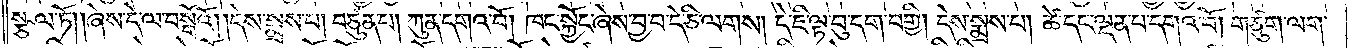སྩལ་ཏོ། །ཞེས་དེ་ལ་བསྒོའོ། །དེས་སྨྲས་པ། བཙུན་པ། ཀུན་དགའ་བོ། ཁང་སྐྱོང་ཞེས་བྱ་བ་དེ་ཅི་ལགས། དེ་ཇི་ལྟ་བུ་དག་བགྱི། དེས་སྨྲས་པ། ཚེ་དང་ལྡན་པ་དགའ་བོ། གཙུག་ལག་
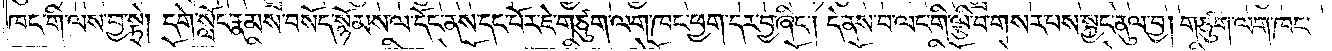ཁང་གི་ལས་བྱ་སྟེ། དགེ་སློང་རྣམས་བསོད་སྙོམས་ལ་དོང་ནས་དང་པོར་ཇེ་གཙུག་ལག་ཁང་ཕྱག་དར་བྱ་ཞིང༌། དེ་ནས་བ་ལང་གི་ལྕི་བ་གསར་པས་སྐྱང་ནུལ་བྱ། གཙུག་ལག་ཁང་
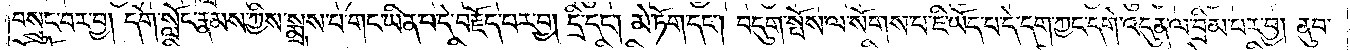བསྲུང་བར་བྱ། དགེ་སློང་རྣམས་ཀྱིས་སྨྲས་པ་གང་ཡིན་པ་དེ་བརྗོད་པར་བྱ། དྲི་དང༌། མེ་ཏོག་དང༌། བདུག་སྤོས་ལ་སོགས་པ་ཇི་ཡོད་པ་དེ་དག་ཀྱང་དགེ་འདུན་ལ་བྲིམ་པར་བྱ། ནུབ་
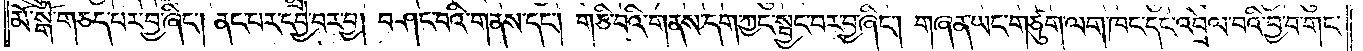མོ་སྒོ་གཅད་པར་བྱ་ཞིང༌། ནང་པར་དབྱེ་བར་བྱ། བཤང་བའི་གནས་དང༌། གཅི་བའི་གནས་དག་ཀྱང་སྦྱང་བར་བྱ་ཞིང༌། གཞན་ཡང་གཙུག་ལག་ཁང་དང་འབྲེལ་བའི་བྱ་བ་གང་
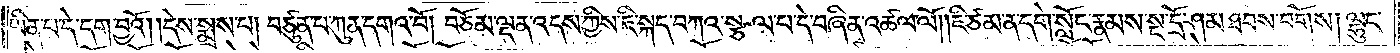ཡིན་པ་དེ་དག་བྱའོ། །དེས་སྨྲས་པ། བཙུན་པ་ཀུན་དགའ་བོ། བཅོམ་ལྡན་འདས་ཀྱིས་ཇི་སྐད་བཀའ་སྩལ་པ་དེ་བཞིན་འཚལ་ལོ། །ཇི་ཙམ་ན་དགེ་སློང་རྣམས་སྔ་དྲོ་ཤམ་ཐབས་བགོས། ལྷུང་
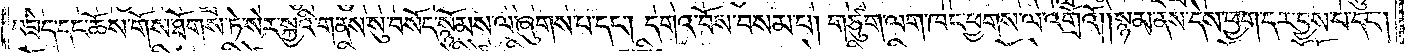བཟེད་དང་ཆོས་གོས་ཐོགས་ཏེ་སེར་སྐྱའི་གནས་སུ་བསོད་སྙོམས་ལ་ཞུགས་པ་དང༌། དགའ་བོས་བསམ་པ། གཙུག་ལག་ཁང་ཕྱགས་ལ་འགྲོའོ། །སྙམ་ནས་དེས་ཕྱག་དར་བྱས་པ་དང༌།
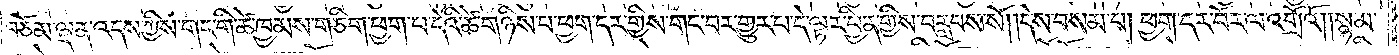བཅོམ་ལྡན་འདས་ཀྱིས་གང་གི་ཚེ་ཁྱམས་གཅིག་ཕྱག་པ་དེའི་ཚེ་གཉིས་པ་ཕྱག་དར་གྱིས་གང་བར་གྱུར་པ་དེ་ལྟར་བྱིན་གྱིས་བརླབས་སོ། །དེས་བསམ་པ། ཕྱག་དར་བོར་ལ་འགྲོའོ། །སྙམ་
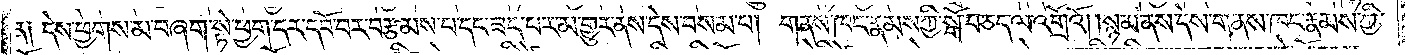ན། དེས་ཕྱགས་མ་བཞག་སྟེ་ཕྱག་དར་དབོ་བར་བརྩམས་པ་དང་ཟད་པར་མ་གྱུར་ནས་དེས་བསམ་པ། གནས་ཁང་རྣམས་ཀྱི་སྒོ་བཅད་ལ་འགྲོའོ། །སྙམ་ནས་དེས་གནས་ཁང་རྣམས་ཀྱི་
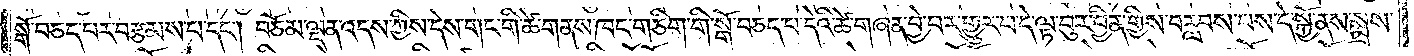སྒོ་བཅད་པར་བརྩམས་པ་དང༌། བཅོམ་ལྡན་འདས་ཀྱིས་དེས་གང་གི་ཚེ་གནས་ཁང་གཅིག་གི་སྒོ་བཅད་པ་དེའི་ཚེ་གཞན་བྱེ་བར་གྱུར་པ་དེ་ལྟ་བུར་བྱིན་གྱིས་བརླབས་པས་དེ་སྐྱོ་ནས་སྨྲས་
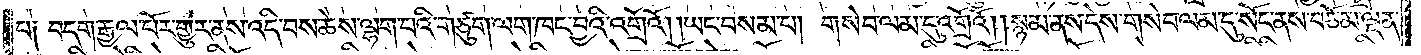པ། བདག་རྒྱལ་པོར་གྱུར་ནས་འདི་བས་ཆེས་ལྷག་པའི་གཙུག་ལག་ཁང་བྱའི་འགྲོའོ། །ཡང་བསམ་པ། གསེབ་ལམ་དུ་འགྲོའོ། །སྙམ་ནས་དེས་གསེབ་ལམ་དུ་སོང་ནས་བཅོམ་ལྡན་
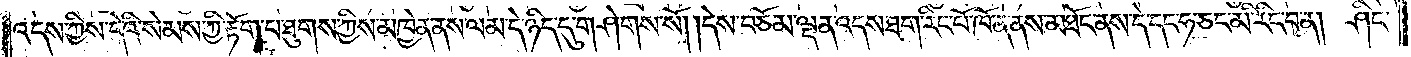འདས་ཀྱིས་དེའི་སེམས་ཀྱི་རྟོག་པ་ཐུགས་ཀྱིས་མཁྱེན་ནས་ལམ་དེ་ཉིད་དུ་གཤེགས་སོ། །དེས་བཅོམ་ལྡན་འདས་ཐག་རིང་པོ་ཁོ་ན་ནས་མཐོང་ནས་དེ་དང་ཧ་ཅང་མི་རིང་བ་ན། ཤིང་
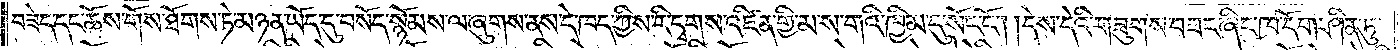བཟེད་དང་ཆོས་གོས་ཐོགས་ཏེ་མཉན་ཡོད་དུ་བསོད་སྙོམས་ལ་ཞུགས་ནས་དེ་ཁད་ཀྱིས་རི་དྭགས་འཛིན་གྱི་མ་ས་གའི་ཁྱིམ་དུ་སོང་ངོ༌། །དེས་དེའི་གཟུགས་བཟང་ཞིང་ཁ་དོག་ཤིན་ཏུ་
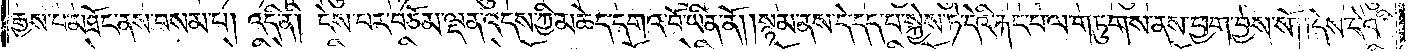རྒྱས་པ་མཐོང་ནས་བསམ་པ། འདི་ནི། ངེས་པར་བཅོམ་ལྡན་འདས་ཀྱི་མཆེད་དགའ་བོ་ཡིན་ནོ། །སྙམ་ནས་དེ་དད་པ་སྐྱེས་ཏེ་དེའི་རྐང་པ་ལ་གཏུགས་ནས་ཕྱག་བྱས་སོ། །དེས་དེའི་
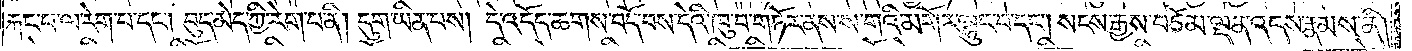རྐང་པ་ལ་རེག་པ་དང༌། བུད་མེད་ཀྱི་རེག་པ་ནི། དུག་ཡིན་པས། དེ་འདོད་ཆགས་བདོ་བས་དེའི་ཁུ་བ་གཏོར་ནས་ས་གའི་མགོར་ལྷུང་བ་དང༌། སངས་རྒྱས་བཅོམ་ལྡན་འདས་རྣམས་ནི།
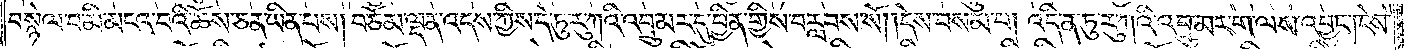བསྙེལ་བ་མི་མངའ་བའི་ཆོས་ཅན་ཡིན་པས། བཅོམ་ལྡན་འདས་ཀྱིས་དེ་ཏུ་རུ་ཀའི་འབྲུ་མར་དུ་བྱིན་གྱིས་བརླབས་སོ། །དེས་བསམ་པ། འདི་ན་ཏུ་རུ་ཀའི་འབྲུ་མར་ག་ལས་འབྱུང༌། ངེས་
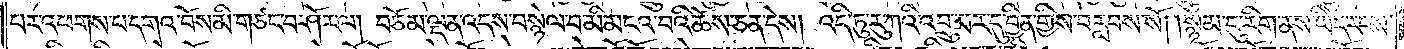པར་འཕགས་པ་དགའ་བོས་མི་གཙང་བ་ཤོར་ལ། བཅོམ་ལྡན་འདས་བསྙེལ་བ་མི་མངའ་བའི་ཆོས་ཅན་དེས། འདི་ཏུ་རུ་ཀའི་འབྲུ་མར་དུ་བྱིན་གྱིས་བརླབས་སོ། །སྙམ་དུ་རིག་ནས་ཡིད་རངས་
